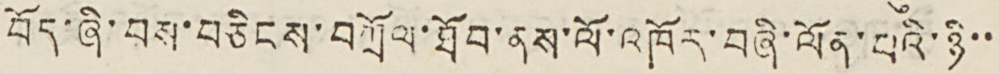བོད་ཞི་བས་བཅིངས་བཀྲོལ་ཐོབ་ནས་ལོ་འཁོར་བཞི་ལོན་པའི་ཉི་་
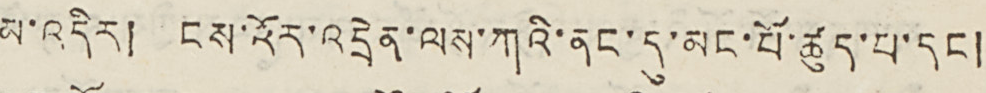མ་འདིར། ངས་འོར་འདྲེན་ལས་ཀའི་ནང་དུ་མང་པོ་ཚུད་པ་དང །
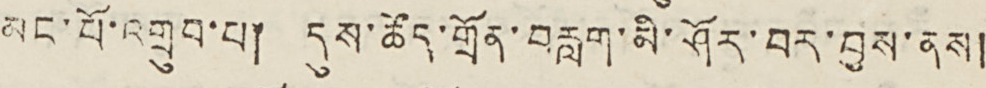མང་པོ་འགྲུབ་པ། དུས་ཚོད་གྲོན་བརླག་མི་ཤོར་བར་བྱས་ནས།
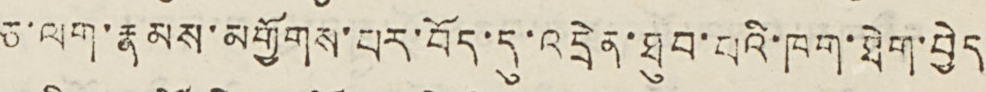ཅ་ལག་རྣམས་མགྱོགས་པར་དུ་འདྲེན་ཐུབ་པའི་ཁག་ཐེག་བྱེད
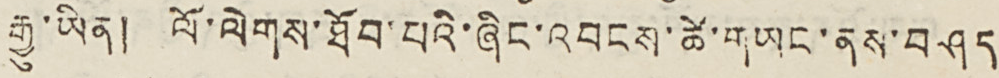རྒྱུ་ཡིན། ལོ་ལེགས་ཐོབ་པའི་ཞིང་འབངས་ཚེ་གཡང་ནས་བཤད
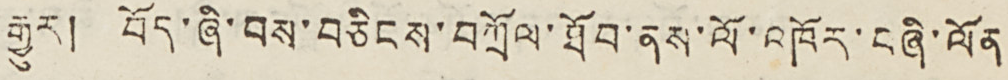རྒྱུར། བོད་ཞི་བས་བཅིངས་བཀྲོལ་ཐོབ་ནས་ལོ་འཁོར་བཞི་ལོན
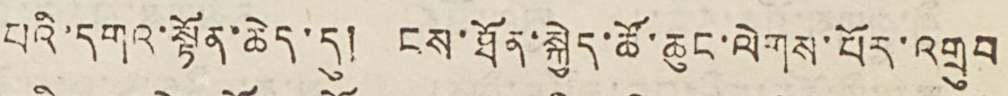པའི་དགའ་སྟོན་ཆེད་དུ། ངས་ཐོན་སྐྱེད་ཚོ་ཆུང་ལེགས་པོར་འགྲུབ
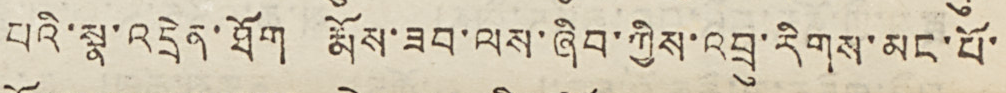པའི་སྣ་འདྲེན་ཐོག རྨོས་ཟབ་ལས་ཞིབ་ཀྱིས་འབྲུ་རིགས་མང་པོ་
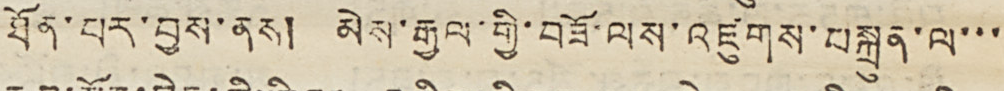ཐོན་པར་བྱས་ནས། མེས་རྒྱལ་གྱི་བཟོ་ལས་འཛུགས་བསྐྲུན་ལ་་་
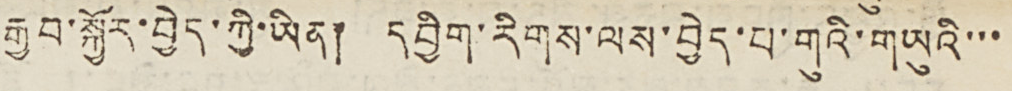རྒྱབ་སྐྱོར་བྱེད་ཀྱི་ཡིན། དབྱིག་རིགས་ལས་བྱེད་པ་གུའི་གཡུའི་་་
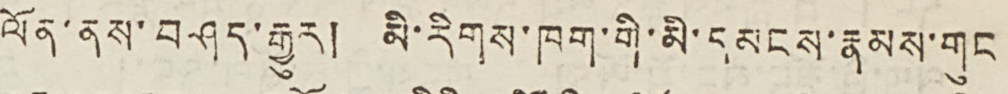ལོན་ནས་བཤད་རྒྱུར། མི་རིགས་ཁག་གི་མི་དམངས་རྣམས་གུང
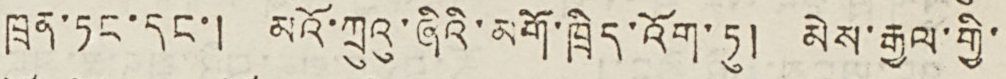ཁྲན་ཏང་དང་། མའོ་ཀྲུའུ་ཞིའི་མགོ་ཁྲིད་འོག་ཏུ། མེས་རྒྱལ་གྱི་
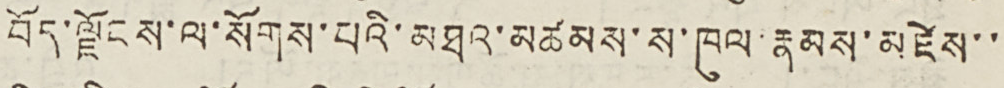བོད་ལྗོངས་ལ་སོགས་པའི་མཐའ་མཚམས་ས་ཁུལ་རྣམས་མཛེས་་
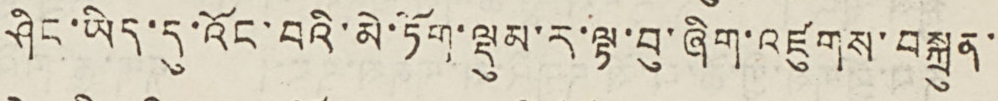ཤིང་ཡིད་དུ་འོང་བའི་མེ་ཏོག་ལྡུམ་ར་ལྟ་བུ་ཞིག་འཛུགས་བསྐྲུན་
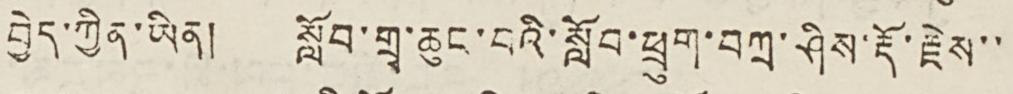བྱེད་ཀྱིན་ཡིན། སློབ་གྲྭ་ཆུང་བའི་སློབ་ཕྲུག་བཀྲ་ཤིས་རྡོ་རྗེས་་
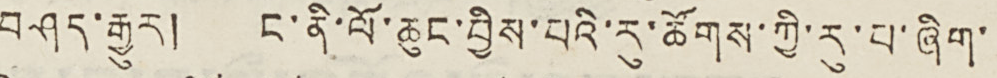བཤད་རྒྱུར། ང་ནི་ལོ་ཆུང་བྱིས་པའི་རུ་ཚོགས་ཀྱི་རུ་པ་ཞིག
